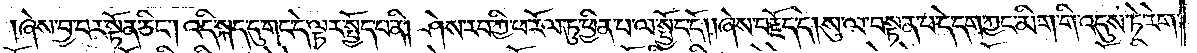ཞེས་བྱ་བར་སྟོན་ཅིང༌། འདི་སྐད་དུ་གང་དེ་ལྟར་སྤྱོད་པ་ནི། ཤེས་རབ་ཀྱི་ཕ་རོལ་ཏུ་ཕྱིན་པ་ལ་སྤྱོད་དོ། །ཞེས་བརྗོད་དེ། སུ་ལ་བསྟན་པ་དེ་དག་ཀྱང་མིག་གི་འདུས་ཏེ་རེག་
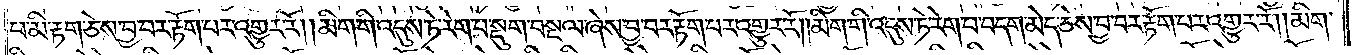པ་མི་རྟག་ཅེས་བྱ་བར་རྟོག་པར་འགྱུར་རོ། །མིག་གི་འདུས་ཏེ་རེག་པ་སྡུག་བསྔལ་ཞེས་བྱ་བར་རྟོག་པར་འགྱུར་རོ། །མིག་གི་འདུས་ཏེ་རེག་པ་བདག་མེད་ཅེས་བྱ་བར་རྟོག་པར་འགྱུར་རོ། །མིག་
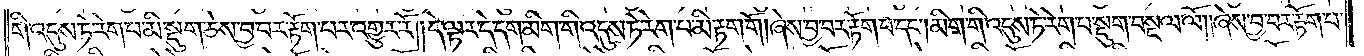གི་འདུས་ཏེ་རེག་པ་མི་སྡུག་ཅེས་བྱ་བར་རྟོག་པར་འགྱུར་རོ། །དེ་ལྟར་དེ་དག་མིག་གི་འདུས་ཏེ་རེག་པ་མི་རྟག་གོ། ཞེས་བྱ་བར་རྟོག་པ་དང༌། མིག་གི་འདུས་ཏེ་རེག་པ་སྡུག་བསྔལ་ལོ། །ཞེས་བྱ་བར་རྟོག་པ་
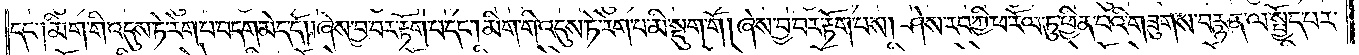དང༌། མིག་གི་འདུས་ཏེ་རེག་པ་བདག་མེད་དོ། །ཞེས་བྱ་བར་རྟོག་པ་དང༌། མིག་གི་འདུས་ཏེ་རེག་པ་མི་སྡུག་གོ། ཞེས་བྱ་བར་རྟོག་པས། ཤེས་རབ་ཀྱི་ཕ་རོལ་ཏུ་ཕྱིན་པའི་གཟུགས་བརྙན་ལ་སྤྱོད་པར་
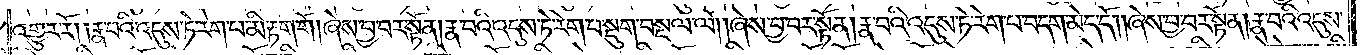འགྱུར་རོ། །རྣ་བའི་འདུས་ཏེ་རེག་པ་མི་རྟག་གོ། ཞེས་བྱ་བར་སྟོན། རྣ་བའི་འདུས་ཏེ་རེག་པ་སྡུག་བསྔལ་ལོ། །ཞེས་བྱ་བར་སྟོན། རྣ་བའི་འདུས་ཏེ་རེག་པ་བདག་མེད་དོ། །ཞེས་བྱ་བར་སྟོན། རྣ་བའི་འདུས་
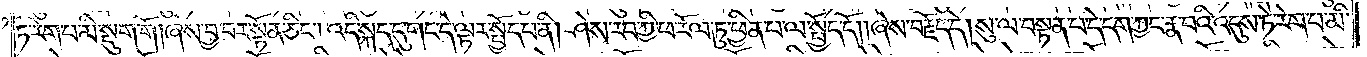ཏེ་རེག་པ་མི་སྡུག་གོ། ཞེས་བྱ་བར་སྟོན་ཅིང༌། འདི་སྐད་དུ་གང་དེ་ལྟར་སྤྱོད་པ་ནི། ཤེས་རབ་ཀྱི་ཕ་རོལ་ཏུ་ཕྱིན་པ་ལ་སྤྱོད་དོ། །ཞེས་བརྗོད་དེ། སུ་ལ་བསྟན་པ་དེ་དག་ཀྱང་རྣ་བའི་འདུས་ཏེ་རེག་པ་མི་
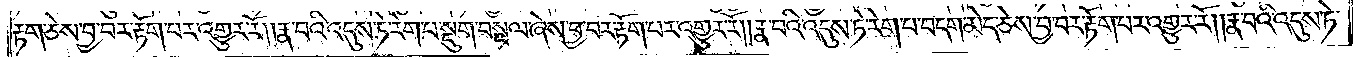རྟག་ཅེས་བྱ་བར་རྟོག་པར་འགྱུར་རོ། །རྣ་བའི་འདུས་ཏེ་རེག་པ་སྡུག་བསྔལ་ཞེས་བྱ་བར་རྟོག་པར་འགྱུར་རོ། །རྣ་བའི་འདུས་ཏེ་རེག་པ་བདག་མེད་ཅེས་བྱ་བར་རྟོག་པར་འགྱུར་རོ། །རྣ་བའི་འདུས་ཏེ་
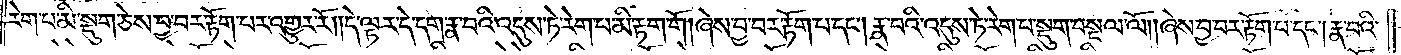རེག་པ་མི་སྡུག་ཅེས་བྱ་བར་རྟོག་པར་འགྱུར་རོ། །དེ་ལྟར་དེ་དག་རྣ་བའི་འདུས་ཏེ་རེག་པ་མི་རྟག་གོ། ཞེས་བྱ་བར་རྟོག་པ་དང༌། རྣ་བའི་འདུས་ཏེ་རེག་པ་སྡུག་བསྔལ་ལོ། །ཞེས་བྱ་བར་རྟོག་པ་དང༌། རྣ་བའི་
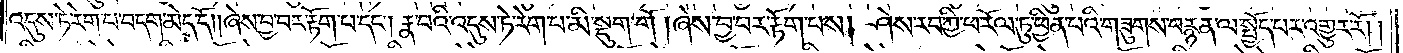འདུས་ཏེ་རེག་པ་བདག་མེད་དོ། །ཞེས་བྱ་བར་རྟོག་པ་དང༌། རྣ་བའི་འདུས་ཏེ་རེག་པ་མི་སྡུག་གོ། ཞེས་བྱ་བར་རྟོག་པས། ཤེས་རབ་ཀྱི་ཕ་རོལ་ཏུ་ཕྱིན་པའི་གཟུགས་བརྙན་ལ་སྤྱོད་པར་འགྱུར་རོ། །
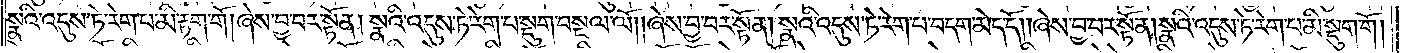སྣའི་འདུས་ཏེ་རེག་པ་མི་རྟག་གོ། ཞེས་བྱ་བར་སྟོན། སྣའི་འདུས་ཏེ་རེག་པ་སྡུག་བསྔལ་ལོ། །ཞེས་བྱ་བར་སྟོན། སྣའི་འདུས་ཏེ་རེག་པ་བདག་མེད་དོ། །ཞེས་བྱ་བར་སྟོན། སྣའི་འདུས་ཏེ་རེག་པ་མི་སྡུག་གོ།
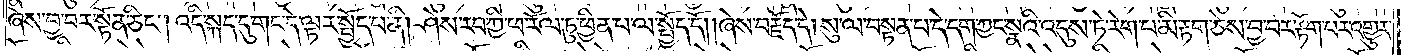ཞེས་བྱ་བར་སྟོན་ཅིང༌། འདི་སྐད་དུ་གང་དེ་ལྟར་སྤྱོད་པ་ནི། ཤེས་རབ་ཀྱི་ཕ་རོལ་ཏུ་ཕྱིན་པ་ལ་སྤྱོད་དོ། །ཞེས་བརྗོད་དེ། སུ་ལ་བསྟན་པ་དེ་དག་ཀྱང་སྣའི་འདུས་ཏེ་རེག་པ་མི་རྟག་ཅེས་བྱ་བར་རྟོག་པར་འགྱུར་
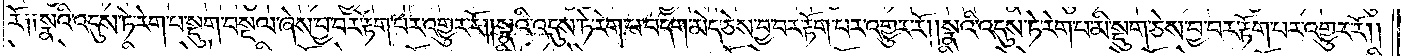རོ༑ ༑སྣའི་འདུས་ཏེ་རེག་པ་སྡུག་བསྔལ་ཞེས་བྱ་བར་རྟོག་པར་འགྱུར་རོ། །སྣའི་འདུས་ཏེ་རེག་པ་བདག་མེད་ཅེས་བྱ་བར་རྟོག་པར་འགྱུར་རོ། །སྣའི་འདུས་ཏེ་རེག་པ་མི་སྡུག་ཅེས་བྱ་བར་རྟོག་པར་འགྱུར་རོ། །
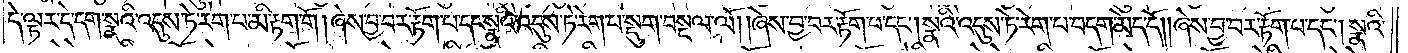དེ་ལྟར་དེ་དག་སྣའི་འདུས་ཏེ་རེག་པ་མི་རྟག་གོ། ཞེས་བྱ་བར་རྟོག་པ་དང་སྣའི་འདུས་ཏེ་རེག་པ་སྡུག་བསྔལ་ལོ། །ཞེས་བྱ་བར་རྟོག་པ་དང༌། སྣའི་འདུས་ཏེ་རེག་པ་བདག་མེད་དོ། །ཞེས་བྱ་བར་རྟོག་པ་དང༌། སྣའི་
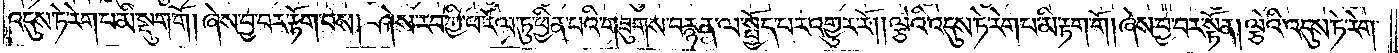འདུས་ཏེ་རེག་པ་མི་སྡུག་གོ། ཞེས་བྱ་བར་རྟོག་པས། ཤེས་རབ་ཀྱི་ཕ་རོལ་ཏུ་ཕྱིན་པའི་གཟུགས་བརྙན་ལ་སྤྱོད་པར་འགྱུར་རོ། །ལྕེའི་འདུས་ཏེ་རེག་པ་མི་རྟག་གོ། ཞེས་བྱ་བར་སྟོན། ལྕེའི་འདུས་ཏེ་རེག་
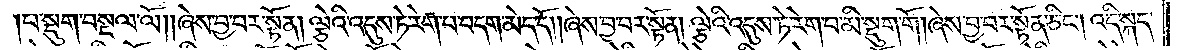པ་སྡུག་བསྔལ་ལོ། །ཞེས་བྱ་བར་སྟོན། ལྕེའི་འདུས་ཏེ་རེག་པ་བདག་མེད་དོ། །ཞེས་བྱ་བར་སྟོན། ལྕེའི་འདུས་ཏེ་རེག་པ་མི་སྡུག་གོ། ཞེས་བྱ་བར་སྟོན་ཅིང༌། འདི་སྐད་
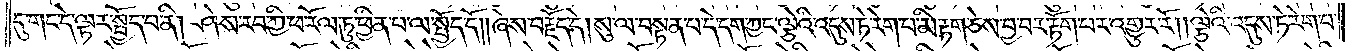དུ་གང་དེ་ལྟར་སྤྱོད་པ་ནི། ཤེས་རབ་ཀྱི་ཕ་རོལ་ཏུ་ཕྱིན་པ་ལ་སྤྱོད་དོ། །ཞེས་བརྗོད་དེ། སུ་ལ་བསྟན་པ་དེ་དག་ཀྱང་ལྕེའི་འདུས་ཏེ་རེག་པ་མི་རྟག་ཅེས་བྱ་བར་རྟོག་པར་འགྱུར་རོ། །ལྕེའི་འདུས་ཏེ་རེག་པ་
